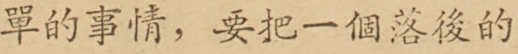單的事情，要把一個落後的
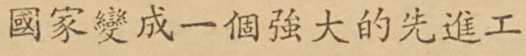國家變成一個強大的先進工
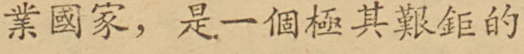業國家，是一個及其艱鉅的
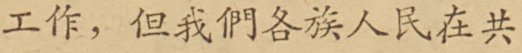工作，但我們各族人民在共
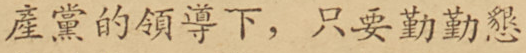產黨的領導下，只要勤勤懇
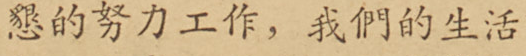懇的努力工作，我們的生活
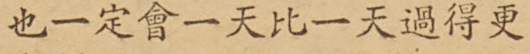也一定會一天比一天過得更
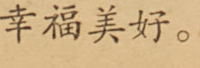幸福美好。
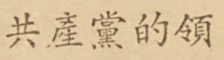共產黨的領
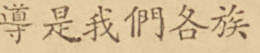導是我們各族
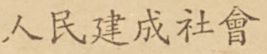人民建成社會
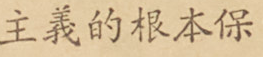主義的根本保
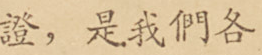證，是我們各
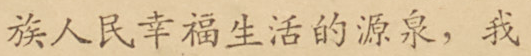族人民幸福生活的源泉，我
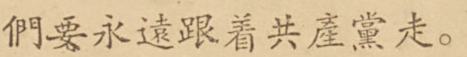們要永遠跟着共產黨走。
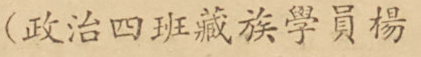（政治司班藏族學員楊
